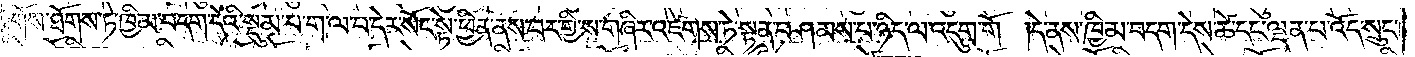གོས་ཐོགས་ཏ་ཁྱིམ་བདག་དེའི་སྡུམ་པ་ག་ལ་བ་དེར་སོང་སྟེ་ཕྱིན་ནས་བར་གྱི་ས་གཞིར་འཛེགས་ཏེ་སྟན་བཤམས་པ་ཉིད་ལ་འདུག་གོ །དེ་ནས་ཁྱིམ་བདག་དེས་ཚེ་དང་ལྡན་པ་འོད་སྲུང་
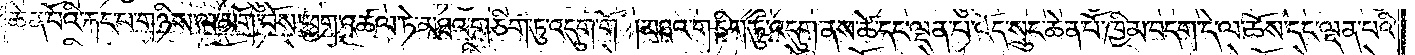ཆེན་པོའི་རྐང་པ་གཉིས་ལ་མགོ་བོས་ཕྱག་འཚལ་ཏེ་མཐའ་གཅིག་ཏུ་འདུག་གོ །མཐའ་གཅིག་ཏུ་འདུག་ནས་ཚེ་དང་ལྡན་པ་འོད་སྲུང་ཆེན་པོ་ཁྱིམ་བདག་དེ་ལ་ཆོས་དང་ལྡན་པའི་
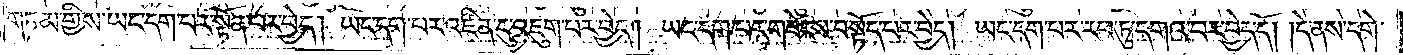གཏམ་གྱིས་ཡང་དག་པར་སྟོན་པར་བྱེད། ཡང་དག་པར་འཛིན་དུ་འཇུག་པར་བྱེད། ཡང་དག་པར་གཟེངས་བསྟོད་པར་བྱེད། ཡང་དག་པར་རབ་ཏུ་དགའ་བར་བྱེད་དོ། །དེ་ནས་དགེ་
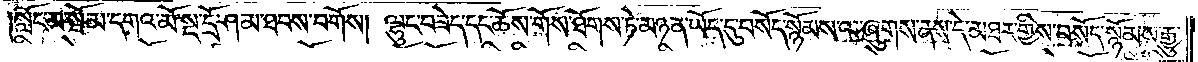སློང་མ་སྦོ་མ་དགའ་མོ་སྔ་དྲོ་ཤམ་ཐབས་བགོས། ལྷུང་བཟེད་དང་ཆོས་གོས་ཐོགས་ཏེ་མཉན་ཡོད་དུ་བསོད་སྙོམས་ལ་ཞུགས་ནས་དེ་མཐར་གྱིས་བསོད་སྙོམས་རྒྱུ་
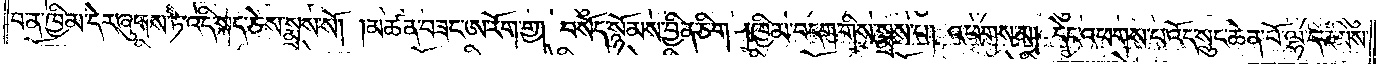བ་ན་ཁྱིམ་དེར་ཞུགས་ཏེ་འདི་སྐད་ཅེས་སྨྲས་སོ། །མཚན་བཟང་ཨ་རོག་གྱ། བསོད་སྙོམས་བྱིན་ཅིག །ཁྱིམ་བདག་གིས་སྨྲས་པ། འཕགས་མ། དེང་འཕགས་པ་འོད་སྲུང་ཆེན་པོ་ལྷ་དང་མིས་
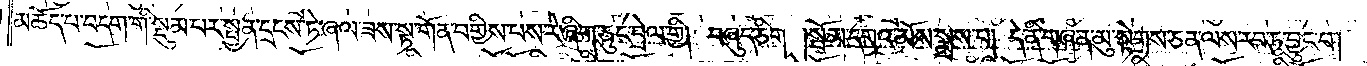མཆོད་པ་བདག་གི་སྡུམ་པར་སྤྱན་དྲངས་ཏེ་ཞལ་ཟས་སྟ་གོན་བགྱིས་པས་རེ་ཞིག་ཅུང་བྲེལ་གྱི། བཞུད་ཅིག །སྦོམ་དགའ་མོས་སྨྲས་པ། དེ་ནི་གཞན་མུ་སྟེགས་ཅན་ལས་རབ་ཏུ་བྱུང་བ།
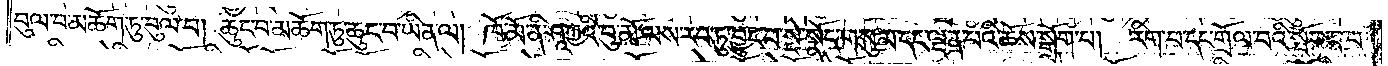བུལ་བ་མཆོག་ཏུ་བུལ་བ། ཆུང་བ་མཆོག་ཏུ་ཆུང་བ་ཡིན་ལ། ཁོ་མོ་ནི་ཤཱཀྱའི་བུ་མོ་ལས་རབ་ཏུ་བྱུང་བ་སྡེ་སྣོད་གསུམ་དང་ལྡན་པའི་ཆོས་སྒྲོག་པ། རིག་པ་དང་གྲོལ་བའི་སྤོབས་པ་
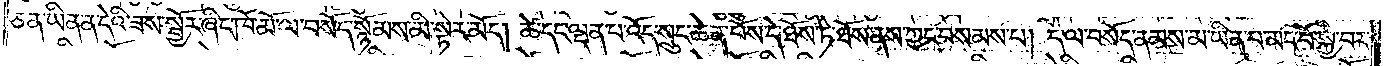ཅན་ཡིན་ན་དེའི་ཟས་སྦྱོར་ཞིང་ཁོ་མོ་ལ་བསོད་སྙོམས་མི་སྟེར་མོད། ཚེ་དང་ལྡན་པ་འོད་སྲུང་ཆེན་པོས་དེ་ཐོས་ཏེ་ཐོས་ནས་ཀྱང་བསམས་པ། དེ་ལ་བསོད་ནམས་མ་ཡིན་པ་མང་པོ་སྐྱེ་བར་
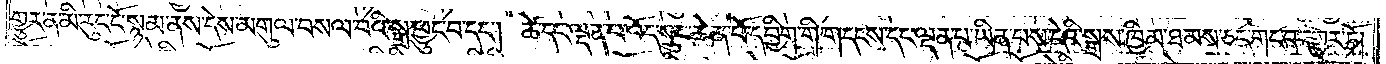གྱུར་ན་མི་རུང་ངོ་སྙམ་ནས་དེས་མགུལ་བསལ་བའི་སྒྲ་ཕྱུང་བ་དང༌། ཚེ་དང་ལྡན་པ་འོད་སྲུང་ཆེན་པོ་དབྱིག་གི་གདངས་དང་ལྡན་པ་ཡིན་པས་དེའི་སྒྲས་ཁྱིམ་ཐམས་ཅད་གང་བར་གྱུར་ཏོ།
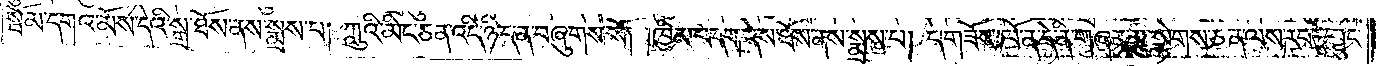སྦོམ་དགའ་མོས་དེའི་སྒྲ་ཐོས་ནས་སྨྲས་པ། ཀླུའི་མིང་ཅན་འདི་ཉིད་ན་བཞུགས་སོ། །ཁྱིམ་བདག་དེས་ཐོས་ནས་སྨྲས་པ། ད་གཟོས་ཁོ་ན་དེ་ནི་གཞན་མུ་སྟེགས་ཅན་ལས་རབ་ཏུ་བྱུང་
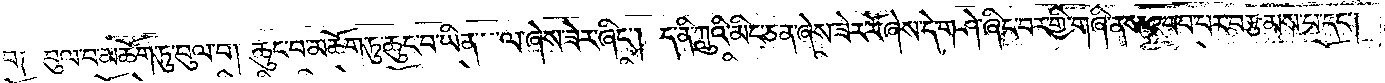བ༑ བུལ་བ་མཆོག་ཏུ་བུལ་བ། ཆུང་བ་མཆོག་ཏུ་ཆུང་བ་ཡིན་ལ་ཞེས་ཟེར་ཞིང༌། ད་ནི་ཀླུའི་མིང་ཅན་ཞེས་ཟེར་རོ་ཞེས་དེ་གཤེ་ཞིང་བར་གྱི་ནས་འབབ་པར་བརྩམས་པ་དང༌།
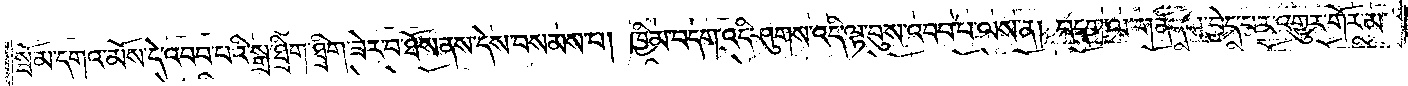སྦོམ་དགའ་མོས་དེ་འབབ་པའི་སྒྲ་ཐྲིག་ཐྲིག་ཟེར་བ་ཐོས་ནས་དེས་བསམས་པ། ཁྱིམ་བདག་འདི་ཤུགས་འདི་ལྟ་བུས་འབབ་པ་ལས་ན། བདག་ལ་གནོད་པ་བྱེད་པར་འགྱུར་གོར་མ་
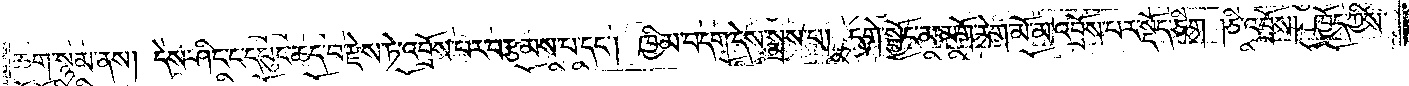ཆག་སྙམ་ནས། དེས་ཤིང་ང་དཔུང་ཆད་བ་རྫེས་ཏེ་འབྲོས་པར་བརྩམས་པ་དང༌། ཁྱིམ་བདག་དེས་སྨྲས་པ། དགེ་སྦྱོང་མ་མགོ་རེག་མོ་མ་འབྲོས་པར་སྡོད་ཅིག །ཅི་འབྲོས། ཁྱོད་ཀྱིས་
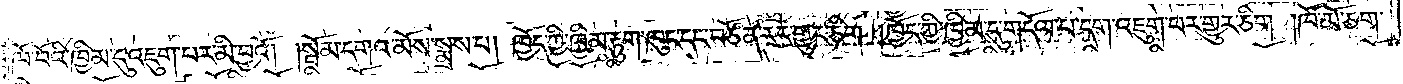ཁོ་བོའི་ཁྱིམ་དུ་འཇུག་པར་མི་བྱའོ། །སྦོམ་དགའ་མོས་སྨྲས་པ། ཁྱོད་ཀྱི་ཁྱིམ་རྟུག་ཁུང་དང་བཙོན་རར་གྱུར་ཅིག །ཁྱོད་ཀྱི་ཁྱིམ་དུ་གདོལ་པ་དག་འཇུག་པར་གྱུར་ཅིག །ཁོ་མོ་ཅག་
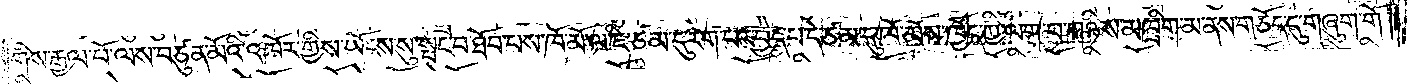གིས་རྒྱལ་པོ་ལས་བཙུན་མོའི་འཁོར་གྱིས་ཡོངས་སུ་སྤང་བ་ཐོབ་པས་ཁོ་མོ་ལ་ཇི་ཙམ་དུ་རེག་པར་བྱེད་པ་དེ་ཙམ་དུ་ཁོ་མོས་ཁྱོད་ཀྱི་ཀླག་པ་གཉིས་མཁྲིག་མ་ནས་གཅོད་དུ་གཞུག་གོ །
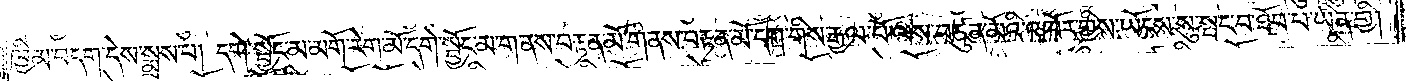ཁྱིམ་བདག་དེས་སྨྲས་པ། དགེ་སྦྱོང་མ་མགོ་རེག་མོ་དགེ་སྦྱོང་མ་གནས་བརྟན་མོ་གནས་བརྟན་མོ་དག་གིས་རྒྱལ་པོ་ལས་བཙུན་མོའི་འཁོར་གྱིས་ཡོངས་སུ་སྤང་བ་ཐོབ་པ་ཡིན་གྱི།
